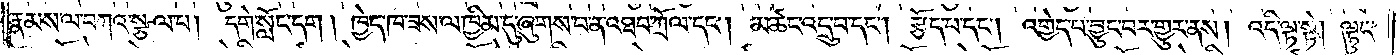རྣམས་ལ་བཀའ་སྩལ་པ། དགེ་སློང་དག །ཁྱེད་ཁ་ཟས་ལ་ཁྱིམ་དུ་ཞུགས་པ་ན་འཐབ་ཀྲོལ་དང༌། མཚང་འདྲུ་བ་དང༌། རྩོད་པ་དང༌། འགྱེད་པ་བྱུང་བར་གྱུར་ནས། འདི་ལྟ་སྟེ། ལྟུང་
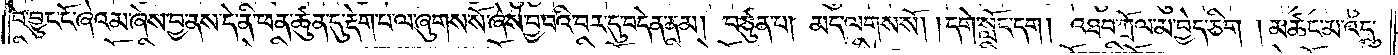བ་བྱུང་ངོ་ཞེའམ་ཞེས་བྱ་བ་ནས་དེ་ནི་ཕན་ཚུན་དུ་རྡེག་པ་ལ་ཞུགས་སོ་ཞེས་བྱ་བའི་བར་དུ་བདེན་ནམ། བཙུན་པ། མད་ལགས་སོ། །དགེ་སློང་དག །འཐབ་ཀྲོལ་མ་བྱེད་ཅིག །མཚང་མ་འདྲུ་
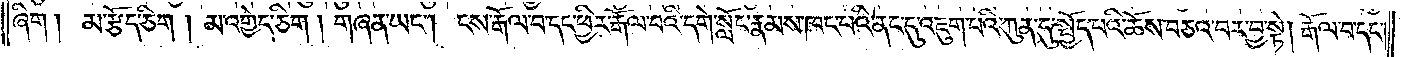ཞིག །མ་རྩོད་ཅིག །མ་འགྱེད་ཅིག །གཞན་ཡང༌། ངས་རྒོལ་བ་དང་ཕྱིར་རྒོལ་བའི་དགེ་སློང་རྣམས་ཁང་པའི་ནང་དུ་འཇུག་པའི་ཀུན་དུ་སྤྱོད་པའི་ཆོས་བཅའ་བར་བྱ་སྟེ། རྒོལ་བ་དང༌།
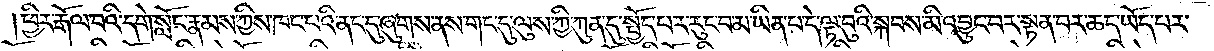ཕྱིར་རྒོལ་བའི་དགེ་སློང་རྣམས་ཀྱིས་ཁང་པའི་ནང་དུ་ཞུགས་ནས་གང་དུ་ལུས་ཀྱི་ཀུན་དུ་སྤྱོད་པར་རུང་བ་མ་ཡིན་པ་དེ་ལྟ་བུའི་སྐབས་མི་འབྱུང་བར་སྟན་བར་ཆད་ཡོད་པར་
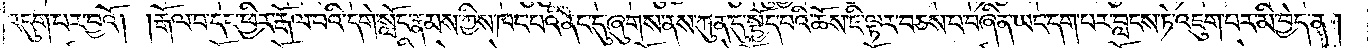འདུག་པར་བྱའོ། །རྒོལ་བ་དང་ཕྱིར་རྒོལ་བའི་དགེ་སློང་རྣམས་ཀྱིས་ཁང་པའི་ནང་དུ་ཞུགས་ནས་ཀུན་དུ་སྤྱོད་པའི་ཆོས་ཇི་ལྟར་བཅས་པ་བཞིན་ཡང་དག་པར་བླངས་ཏེ་འཇུག་པར་མི་བྱེད་ན།
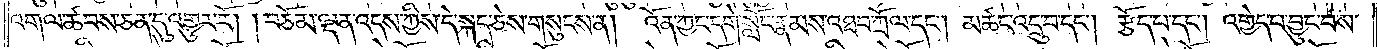འགལ་ཚབས་ཅན་དུ་འགྱུར་རོ། །བཅོམ་ལྡན་འདས་ཀྱིས་དེ་སྐད་ཅེས་གསུངས་ན། འོན་ཀྱང་དགེ་སློང་རྣམས་འཐབ་ཀྲོལ་དང༌། མཚང་འདྲུ་བ་དང༌། རྩོད་པ་དང༌། འགྱེད་པ་བྱུང་བས་
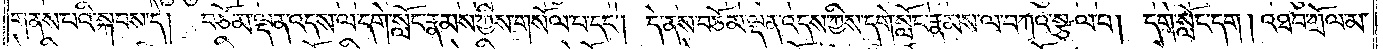གནས་པའི་སྐབས་དེ། བཅོམ་ལྡན་འདས་ལ་དགེ་སློང་རྣམས་ཀྱིས་གསོལ་པ་དང༌། དེ་ནས་བཅོམ་ལྡན་འདས་ཀྱིས་དགེ་སློང་རྣམས་ལ་བཀའ་སྩལ་པ། དགེ་སློང་དག །འཐབ་ཀྲོལ་མ་
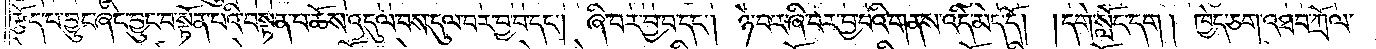རྩོད་པ་བྱུང་ཞིང་བྱུང་བ་སྟོན་པའི་བསྟན་པ་ཆོས་འདུལ་བས་དུལ་བར་བྱ་བ་དང༌། ཞི་བར་བྱ་བ་དང༌། ཉེ་བར་ཞི་བར་བྱ་བའི་གནས་འདི་མེད་དོ། །དགེ་སློང་དག །ཁྱེད་ཅག་འཐབ་ཀྲོལ་
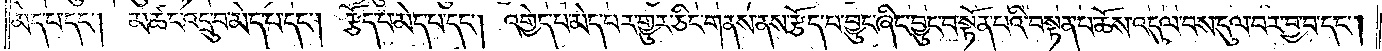མེད་པ་དང༌། མཚང་འདྲུ་བ་མེད་པ་དང༌། རྩོད་པ་མེད་པ་དང༌། འགྱེད་པ་མེད་པར་གྱུར་ཅིང་གནས་ན་རྩོད་པ་བྱུང་ཞིང་བྱུང་བ་སྟོན་པའི་བསྟན་པ་ཆོས་འདུལ་བས་དུལ་བར་བྱ་བ་དང༌།
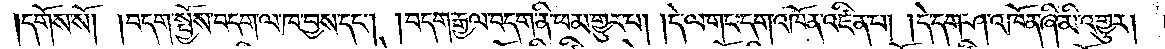དགོས་སོ། །བདག་སྤྱོས་བདག་ལ་ཁ་བྱས་དང༌། །བདག་རྒྱལ་བདག་ནི་ཕམ་གྱུར་པ། །དེ་ལ་གང་དག་འཁོན་འཛིན་པ། །དེ་དག་ཤ་འཁོན་ཞི་མི་འགྱུར༎
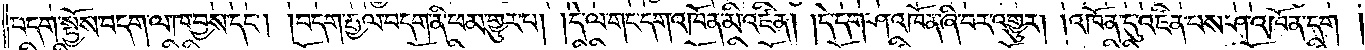བདག་སྤྱོས་བདག་ལ་ཁ་བྱས་དང༌། །བདག་རྒྱལ་བདག་ནི་ཕམ་གྱུར་པ། །དེ་ལ་གང་དག་འཁོན་མི་འཛིན། །དེ་དག་ཤ་འཁོན་ཞི་བར་འགྱུར། །འཁོན་དུ་འཛིན་པས་ཤ་འཁོན་དག།
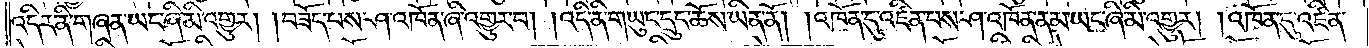འདིར་ནི་གཞན་ཡང་ཞི་མི་འགྱུར། །བཟོད་པས་ཤ་འཁོན་ཞི་འགྱུར་བ། །འདི་ནི་གཡུང་དྲུང་ཆོས་ཡིན་ནོ། །འཁོན་དུ་འཛིན་པས་ཤ་འཁོན་ནམ་ཡང་ཞི་མི་འགྱུར། །འཁོན་དུ་འཛིན་
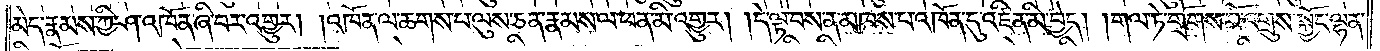མེད་རྣམས་ཀྱི་ཤ་འཁོན་ཞི་བར་འགྱུར། །འཁོན་ལ་ཆགས་པ་ལུས་ཅན་རྣམས་ལ་ཕན་མི་འགྱུར། །དེ་ལྟ་བས་ན་མཁས་པ་འཁོན་དུ་འཛིན་མི་བྱེད། གལ་ཏེ་གྲོགས་པོ་འགྲུས་སྐྱོང་ལྷན་
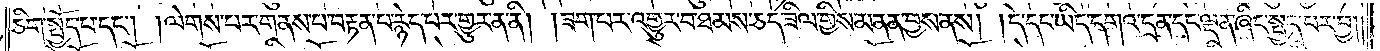ཅིག་སྤྱོད་པ་དང༌། །ལེགས་པར་གནས་པ་བརྟན་པ་རྙེད་པར་གྱུར་ན་ནི། །ཟག་པར་འགྱུར་བ་ཐམས་ཅད་ཟིལ་གྱིས་མནན་བྱས་ནས། །དེ་དང་ཡིད་དགའ་དྲན་དང་ལྡན་ཞིང་སྤྱད་པར་བྱ༎
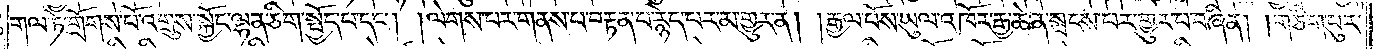གལ་ཏེ་གྲོགས་པོ་འགྲུས་སྐྱོང་ལྷན་ཅིག་སྤྱོད་པ་དང༌། །ལེགས་པར་གནས་པ་བརྟན་པ་རྙེད་པར་མ་གྱུར་ན། །རྒྱལ་པོས་ཡུལ་འཁོར་རྒྱ་ཆེན་སྤངས་པར་གྱུར་བ་བཞིན། །གཅིག་པུར་
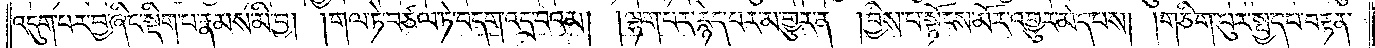འདུག་པར་བྱ་ཞིང་སྡིག་པ་རྣམས་མི་བྱ། །གལ་ཏེ་བཙལ་ཏེ་བདག་འདྲ་བའམ། །ལྷག་པར་རྙེད་པར་མ་གྱུར་ན། །བྱིས་པ་སྟོངས་མོར་འགྱུར་མེད་པས། །གཅིག་པུར་སྤྱད་པ་བརྟན་
